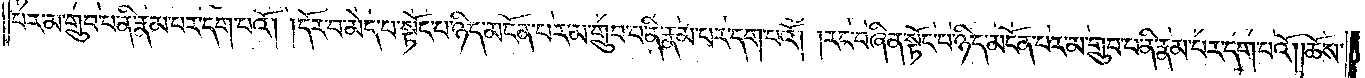པར་མ་གྲུབ་པ་ནི་རྣམ་པར་དག་པའོ། །དོར་བ་མེད་པ་སྟོང་པ་ཉིད་མངོན་པར་མ་གྲུབ་པ་ནི་རྣམ་པར་དག་པའོ། །རང་བཞིན་སྟོང་པ་ཉིད་མངོན་པར་མ་གྲུབ་པ་ནི་རྣམ་པར་དག་པའོ། །ཆོས་
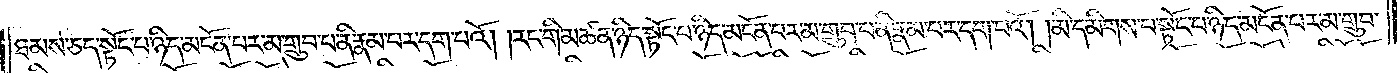ཐམས་ཅད་སྟོང་པ་ཉིད་མངོན་པར་མ་གྲུབ་པ་ནི་རྣམ་པར་དག་པའོ། །རང་གི་མཚན་ཉིད་སྟོང་པ་ཉིད་མངོན་པར་མ་གྲུབ་པ་ནི་རྣམ་པར་དག་པའོ། །མི་དམིགས་པ་སྟོང་པ་ཉིད་མངོན་པར་མ་གྲུབ་
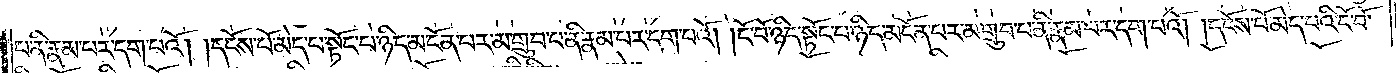པ་ནི་རྣམ་པར་དག་པའོ། །དངོས་པོ་མེད་པ་སྟོང་པ་ཉིད་མངོན་པར་མ་གྲུབ་པ་ནི་རྣམ་པར་དག་པའོ། །ངོ་བོ་ཉིད་སྟོང་པ་ཉིད་མངོན་པར་མ་གྲུབ་པ་ནི་རྣམ་པར་དག་པའོ། །དངོས་པོ་མེད་པའི་ངོ་བོ་
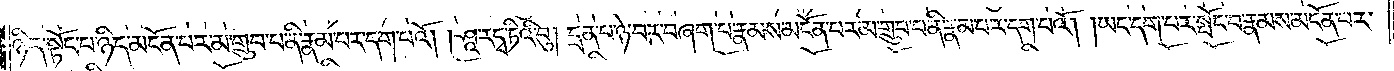ཉིད་སྟོང་པ་ཉིད་མངོན་པར་མ་གྲུབ་པ་ནི་རྣམ་པར་དག་པའོ། །ཤཱ་རདྭ་ཏིའི་བུ། དྲན་པ་ཉེ་བར་བཞག་པ་རྣམས་མངོན་པར་མ་གྲུབ་པ་ནི་རྣམ་པར་དག་པའོ། །ཡང་དག་པར་སྤོང་བ་རྣམས་མངོན་པར་
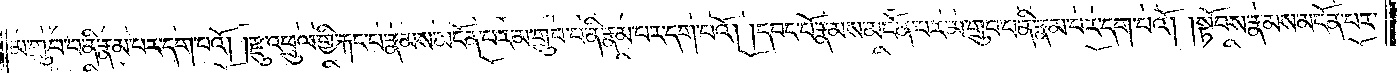མ་གྲུབ་པ་ནི་རྣམ་པར་དག་པའོ། །རྫུ་འཕྲུལ་གྱི་རྐང་པ་རྣམས་མངོན་པར་མ་གྲུབ་པ་ནི་རྣམ་པར་དག་པའོ། །དབང་པོ་རྣམས་མངོན་པར་མ་གྲུབ་པ་ནི་རྣམ་པར་དག་པའོ། །སྟོབས་རྣམས་མངོན་པར་
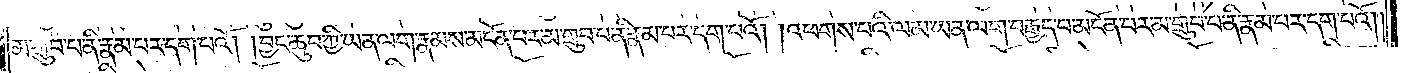མ་གྲུབ་པ་ནི་རྣམ་པར་དག་པའོ། །བྱང་ཆུབ་ཀྱི་ཡན་ལག་རྣམས་མངོན་པར་མ་གྲུབ་པ་ནི་རྣམ་པར་དག་པའོ། །འཕགས་པའི་ལམ་ཡན་ལག་བརྒྱད་པ་མངོན་པར་མ་གྲུབ་པ་ནི་རྣམ་པར་དག་པའོ། །
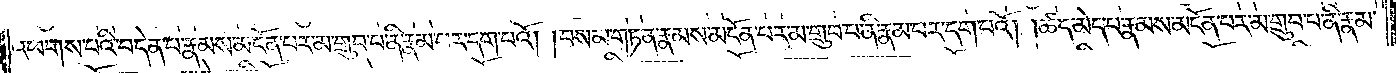འཕགས་པའི་བདེན་པ་རྣམས་མངོན་པར་མ་གྲུབ་པ་ནི་རྣམ་པར་དག་པའོ། །བསམ་གཏན་རྣམས་མངོན་པར་མ་གྲུབ་པ་ནི་རྣམ་པར་དག་པའོ། །ཚད་མེད་པ་རྣམས་མངོན་པར་མ་གྲུབ་པ་ནི་རྣམ་
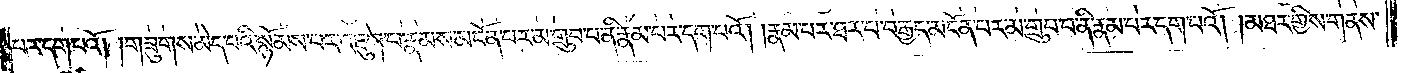པར་དག་པའོ། །གཟུགས་མེད་པའི་སྙོམས་པར་འཇུག་པ་རྣམས་མངོན་པར་མ་གྲུབ་པ་ནི་རྣམ་པར་དག་པའོ། །རྣམ་པར་ཐར་པ་བརྒྱད་མངོན་པར་མ་གྲུབ་པ་ནི་རྣམ་པར་དག་པའོ། །མཐར་གྱིས་གནས་
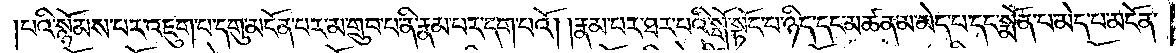པའི་སྙོམས་པར་འཇུག་པ་དགུ་མངོན་པར་མ་གྲུབ་པ་ནི་རྣམ་པར་དག་པའོ། །རྣམ་པར་ཐར་པའི་སྒོ་སྟོང་པ་ཉིད་དང་མཚན་མ་མེད་པ་དང་སྨོན་པ་མེད་པ་མངོན་
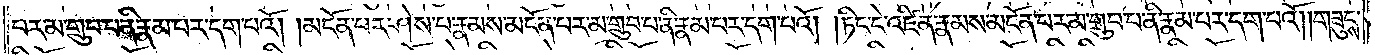པར་མ་གྲུབ་པ་ནི་རྣམ་པར་དག་པའོ། །མངོན་པར་ཤེས་པ་རྣམས་མངོན་པར་མ་གྲུབ་པ་ནི་རྣམ་པར་དག་པའོ། །ཏིང་ངེ་འཛིན་རྣམས་མངོན་པར་མ་གྲུབ་པ་ནི་རྣམ་པར་དག་པའོ། །གཟུངས་
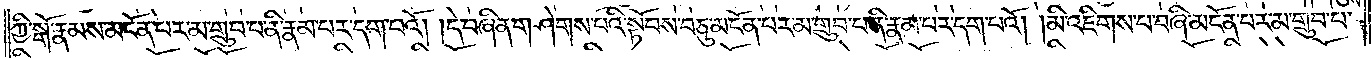ཀྱི་སྒོ་རྣམས་མངོན་པར་མ་གྲུབ་པ་ནི་རྣམ་པར་དག་པའོ། །དེ་བཞིན་གཤེགས་པའི་སྟོབས་བཅུ་མངོན་པར་མ་གྲུབ་པ་ནི་རྣམ་པར་དག་པའོ། །མི་འཇིགས་པ་བཞི་མངོན་པར་མ་གྲུབ་པ་
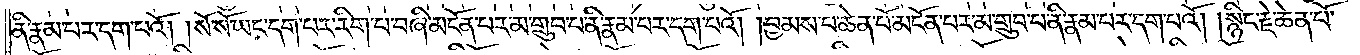ནི་རྣམ་པར་དག་པའོ། །སོ་སོ་ཡང་དག་པར་རིག་པ་བཞི་མངོན་པར་མ་གྲུབ་པ་ནི་རྣམ་པར་དག་པའོ། །བྱམས་པ་ཆེན་པོ་མངོན་པར་མ་གྲུབ་པ་ནི་རྣམ་པར་དག་པའོ། །སྙིང་རྗེ་ཆེན་པོ་
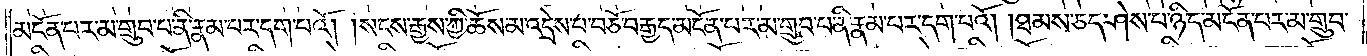མངོན་པར་མ་གྲུབ་པ་ནི་རྣམ་པར་དག་པའོ། །སངས་རྒྱས་ཀྱི་ཆོས་མ་འདྲེས་པ་བཅོ་བརྒྱད་མངོན་པར་མ་གྲུབ་པ་ནི་རྣམ་པར་དག་པའོ། །ཐམས་ཅད་ཤེས་པ་ཉིད་མངོན་པར་མ་གྲུབ་
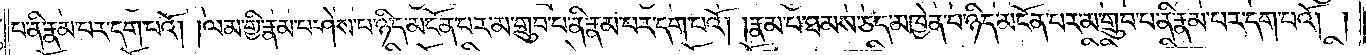པ་ནི་རྣམ་པར་དག་པའོ། །ལམ་གྱི་རྣམ་པ་ཤེས་པ་ཉིད་མངོན་པར་མ་གྲུབ་པ་ནི་རྣམ་པར་དག་པའོ། །རྣམ་པ་ཐམས་ཅད་མཁྱེན་པ་ཉིད་མངོན་པར་མ་གྲུབ་པ་ནི་རྣམ་པར་དག་པའོ།
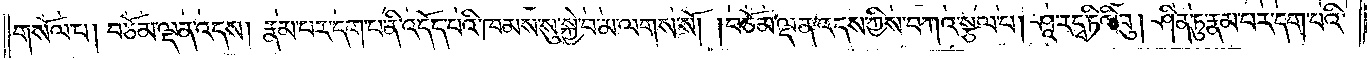གསོལ་པ། བཅོམ་ལྡན་འདས། རྣམ་པར་དག་པ་ནི་འདོད་པའི་ཁམས་སུ་སྐྱེ་བ་མ་ལགས་སོ། །བཅོམ་ལྡན་འདས་ཀྱིས་བཀའ་སྩལ་པ། ཤཱ་ར་དྭ་ཏིའི་བུ། ཤིན་ཏུ་རྣམ་པར་དག་པའི་
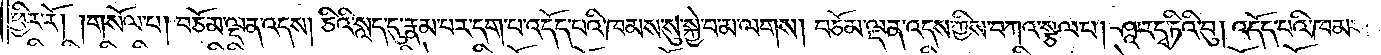ཕྱིར་རོ། །གསོལ་པ། བཅོམ་ལྡན་འདས། ཅིའི་སླད་དུ་རྣམ་པར་དག་པ་འདོད་པའི་ཁམས་སུ་སྐྱེ་བ་མ་ལགས། བཅོམ་ལྡན་འདས་ཀྱིས་བཀའ་སྩལ་པ། ཤཱ་ར་དྭ་ཏིའི་བུ། འདོད་པའི་ཁམས་རང་
